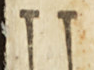༎
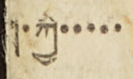་ཀྱི་་་་་
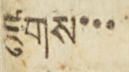ཛུགས་་་
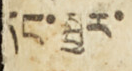དང་སྦྱར་
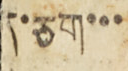ད་ཅག་་་
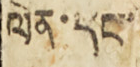ལེན་དང་
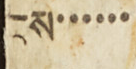ངས་་་་་་
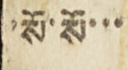་སོ་སོ་་་
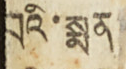བའི་སྨན
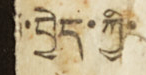བྱེད་ཀྱི་
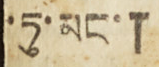་ཏུ་མང་།
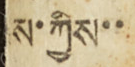ས་ཀྱིས་་
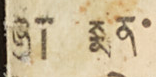ཞུ། སྨན་
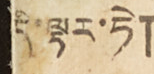དེ་ལྟར་ཏེ།
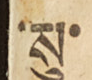་སུ་
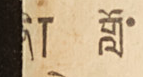ནི། གློ་
